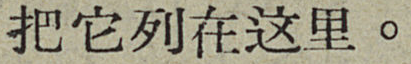把它列在这里。
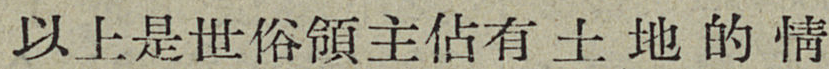以上是世俗領主佔有土地的情
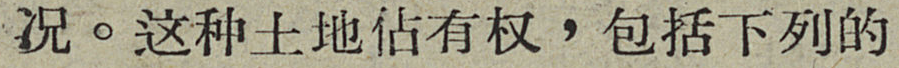况。这种土地佔有权，包括下列的
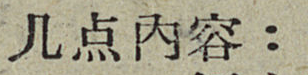几点内容：
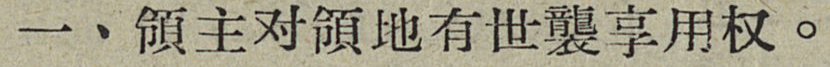一、領主对領地有世襲享用权。
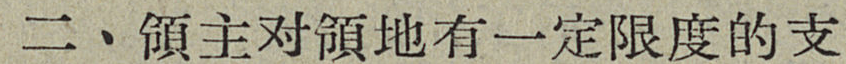二、領主对領地有一定限度的支
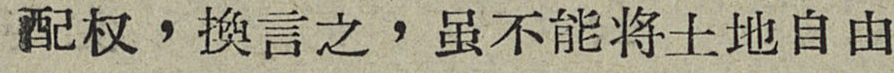配权，換言之，虽不能将土地自由
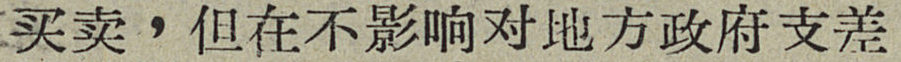买卖，但在不影响对地方政府支差
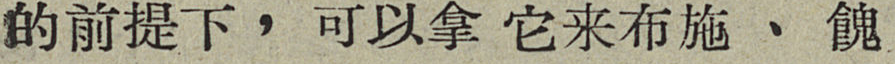的前提下，可以拿它来布施、餽
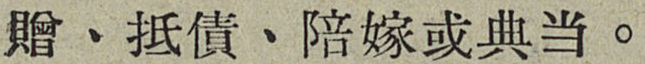贈、抵債、陪嫁或典当。
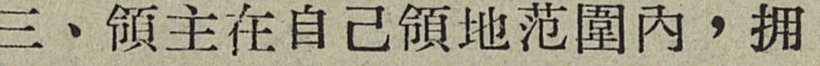三、領主在自己領地范圍內，拥
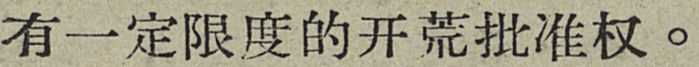有一定限度的开荒批准权。
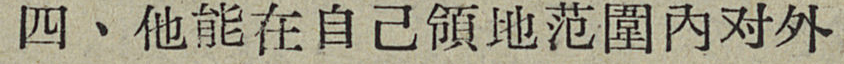四、他能在自己領地圍內对外
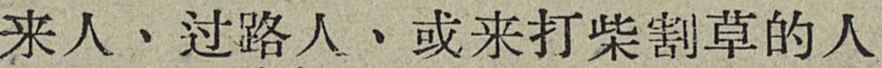来人、过路人、或来打柴割草的人
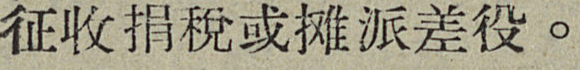征收捐稅或摊派差役。
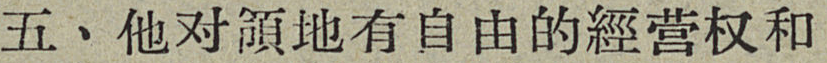五、他对領地有自由的經营权和
